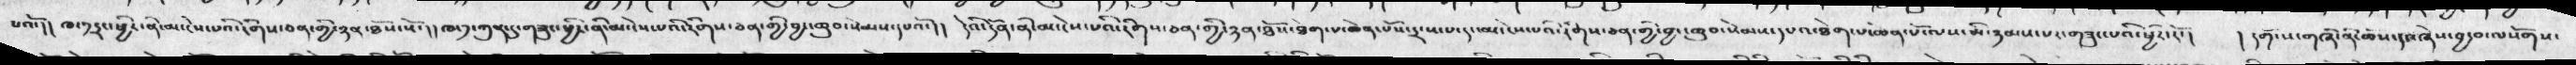པའོ་།།  ཁ་༡་དྲང་ཕྱིར་ནི་མ་ངེས་པའི་རིགས་ཅན་གྱི་་ཉན་ཐོས་སོ་།།  ཁ་༡་ཀུན་དུ་གཟུང་ཕྱིར་ནི་མ་ངེས་པའི་རིགས་ཅན་གྱི་བྱང་ཆུབ་སེམས་དཔའོ་།།   དེའི་དོན་ནི་མ་ངེས་པའི་རིགས་ཅན་གྱི་ཉན་ཐོས་ཐེག་པ་ཆེན་པོས་དྲངས་པ་དང་མ་ངེས་པའི་རིགས་ཅན་གྱི་བྱང་ཆུབ་སེམས་དཔའ་ཐེག་པ་ཆེན་པོ་ལས་མི་ཉམས་པར་གཟུང་པའི་ཕྱིར་རོ་།    ། དགོངས་གཞི་ནི་ཆོས་དང་ཞེས་བྱ་བ་ལསོགས་
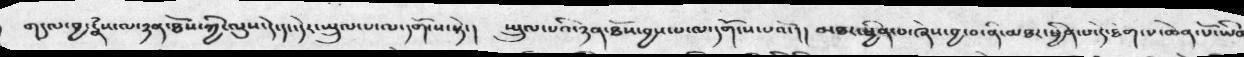གདུལ་བྱ་རྣཾས་ལ་ཉན་ཐོས་ཀྱི་ལུས་དེ་དང་དེར་སྤྲུལ་པ་ལ་དགོངས་སྟེ་།   སྤྲུལ་པའི་ཉན་ཐོས་བྱས་པ་ལ་དགོངས་པའོ་།།  མཐར་ཕྱིན་པ་ཞེས་བྱ་བ་ནི་མཐར་ཕྱིན་པ་དེ་ཐེག་པ་ཆེན་པོ་ཡིན
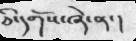ཅི་དགོས་ཞེ་ན་།
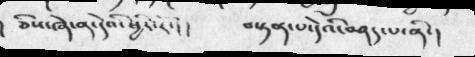ཅིས་ཞེ་ན་དེའི་ཕྱིར་རོ་ །།      བསྟན་པ་དེའི་བཤད་པ་ནི་ །
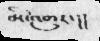མི་འགྱུར་།།
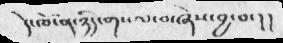དེ་ཁོ་ན་ཉིད་གསལ་བ་ཞེས་བྱ་བ་།།
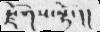རྫོགས་སྟེ་ །།
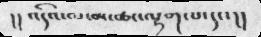།།  འདིའ་ལ་མ་ཚང་ལྷག་པ་དང་།།
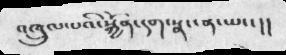འཁྲུལ་པའི་སྐྱོན་དག་སྣང་ན་ཡང་།།
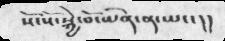སོ་སོ་སྐྱེ་བོ་ཡིན་ན་ཡང་།།
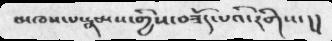མཁས་པ་རྣམས་གྱིས་བཟོད་པའི་རིགས་།།
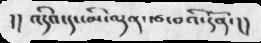།།   འདིའ་དང་མི་ལྡན་རྩ་བའི་དོན་།།
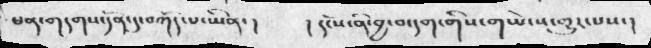ཕན་གདགས་དོན་དུ་བཀོད་པ་ཡིན་།   ། དངོས་ནི་བྱ་བ་དག་གིས་གཡེངས་གྱུར་པས་།
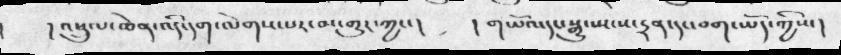།    ། འཕྲུལ་ཆེན་འདི་དག་ལེགས་པར་མ་གྱུར་ཀྱང་།   ། གཡོའ་དང་སྒྱུ་སྤངས་དྲན་དང་བག་ཡོད་ཀྱིས་།
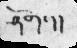ཤོག་།།
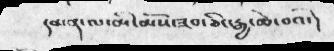དམན་ལ་མི་མོས་ཟབ་ཅིང་རྒྱ་ཆེ་བའི་།
